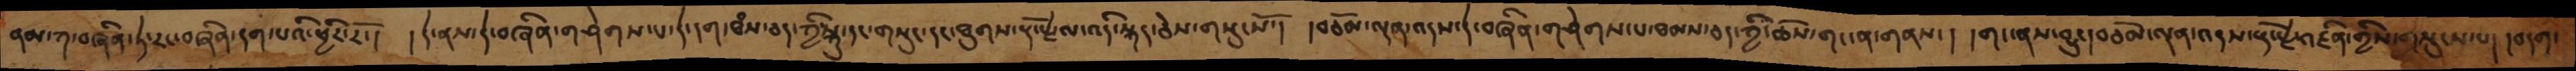ནམ་ཀ་བཞིན་ཏེ་རང་བཞིན་དག་པའི་ཕྱིར་རོ་།  །དེ་ནས་དེ་བཞིན་གཤེགས་པ་དེ་དག་ཐམས་ཅད་ཀྱི་སྐུ་དང་གསུང་དང་ཐུགས་རྡོ་རྗེ་ལ་འདི་སྐད་ཅེས་གསུངསོ་། །བཅོམ་ལྡན་འདས་དེ་གཞིན་གཤེགས་པ་ཐམས་ཅད་ཀྱི་ཆོས་གང་ན་གནས་།  །གང་ནས་བྱུང།བཅོམ་ལྡན་འདས་རྡོ་རྗེ་འཛིན་གྱིས་གསུངས་པ། །བདག་
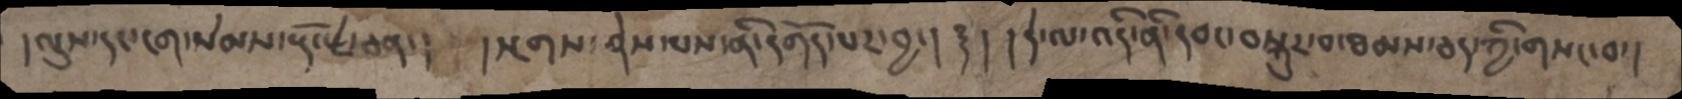།ལུས་དང་ངག་སེམས་རྡོ་རྗེ་ཅན་། །སྔགས་ཤེས་པས་ནི་དགོད་པར་བྱ་། ༈ ། །དེ་ལ་འདི་ནི་དབང་བསྐུར་བ་ཐམས་ཅད་ཀྱི་གསང་བ་།
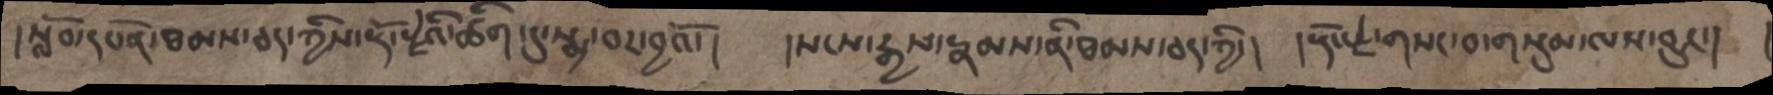། སློབ་དཔོན་ཐམས་ཅད་ཀྱིས་རྡོ་རྗེའི་ཚིག་དུ་སྨྲ་བར་བྱའོ་ །  །སངས་རྒྱས་རྣམས་ནི་ཐམས་ཅད་ཀྱི་།  ། རྡོ་རྗེ་གསང་བ་གསུམ་ལས་བྱུང་། །
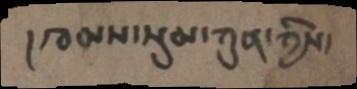། ཁམས་སུམ་ཀུན་ཀྱིས་
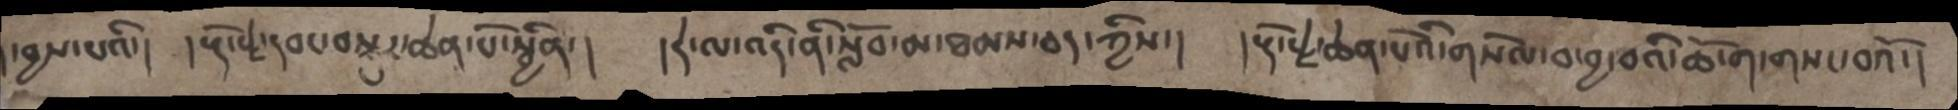་བྱས་པའི་།   །རྡོ་རྗེ་དབང་བསྐུར་ཆེན་པོ་སྦྱིན་།   །དེ་ལ་འདི་ནི་སློབ་མ་ཐམས་ཅད་ཀྱིས་།  །རྡོ་རྗེ་ཆེན་པོའི་གསོལ་བ་བྱ་བའི་ཆོ་ག་གསང་བའོ་།
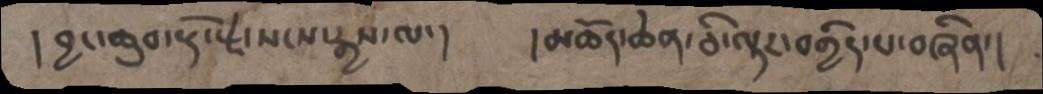།བྱང་ཅུབ་རྡོ་རྗེ་སངས་རྒྱས་ལ་།  །མཆོད་ཆེན་ཅི་ལྟར་བགྱིད་པ་བཞིན་།
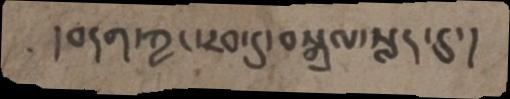།དབང་ཀྱང་རབ་དུ་བསྒྲལ་སླད་དུ་།
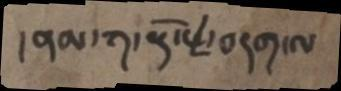།ནམ་ཀ་རྡོ་རྗེ་བདག་ལ་
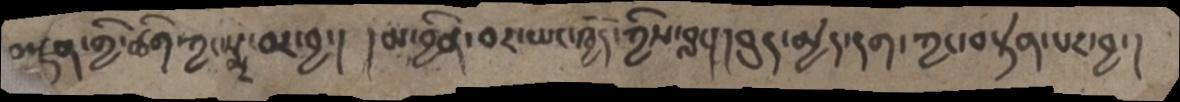བརྫུན་གྱི་ཚིག་ཀྱང་སྨྲ་མ་བྱ་། །མ་བྱིན་བར་ཡང་ཁྱོད་ཀྱིས་བླང། །བུད་མྱེད་དག་ཀྱང་བསྟེན་པར་བྱ་།
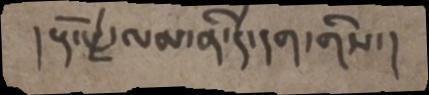།རྡོ་རྗེ་ལམ་ནི་དེ་དག་གིས་།
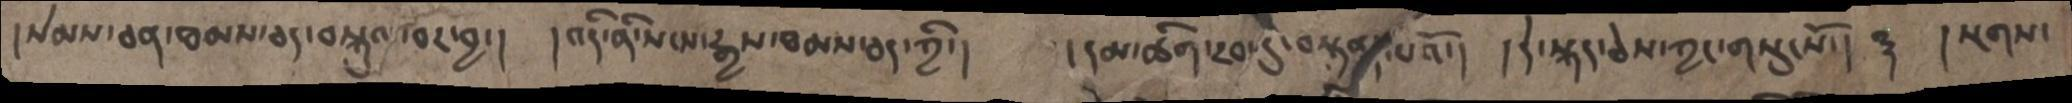།སེམས་ཅན་ཐམས་ཅད་བསྐུལ་བར་བྱ་། །འདི་ནི་སངས་རྒྱས་ཐམས་ཅད་ཀྱི་། །དམ་ཚིག་རབ་དུ་བསྟན་པའོ་། །དེ་སྐད་ཅེས་ཀྱང་གསུངསོ་།  ༈ །སྔགས་
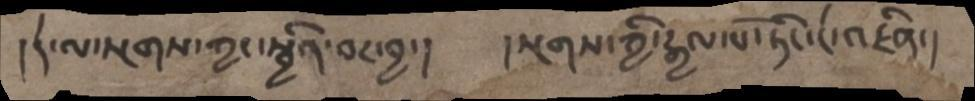།དེ་ལ་སྔགས་ཀྱང་སྦྱིན་བར་བྱ་།  །སྔགས་ཀྱི་རྒྱལ་པོ་ཏིང་ངེ་འཛིན་།
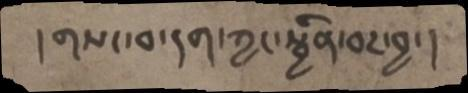།གསང་བ་དག་ཀྱང་སྦྱིན་བར་བྱ་།
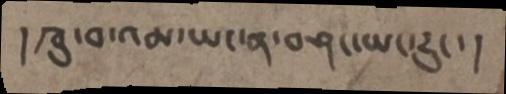།ཁུ་བ་འམ་ཡང་ན་བཤང་ཡང་རུང་།
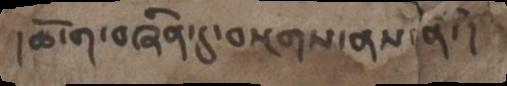།ཆོ་ག་བཞིན་དུ་བསྔགས་ནས་ནི་།
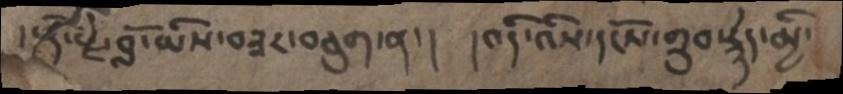།རྡོ་རྗེ་བློ་ཡིས་བཟར་བཅུག་ན་།  །འདི་འིས་དངོས་གྲུབ་རྙེད་མྱི་
